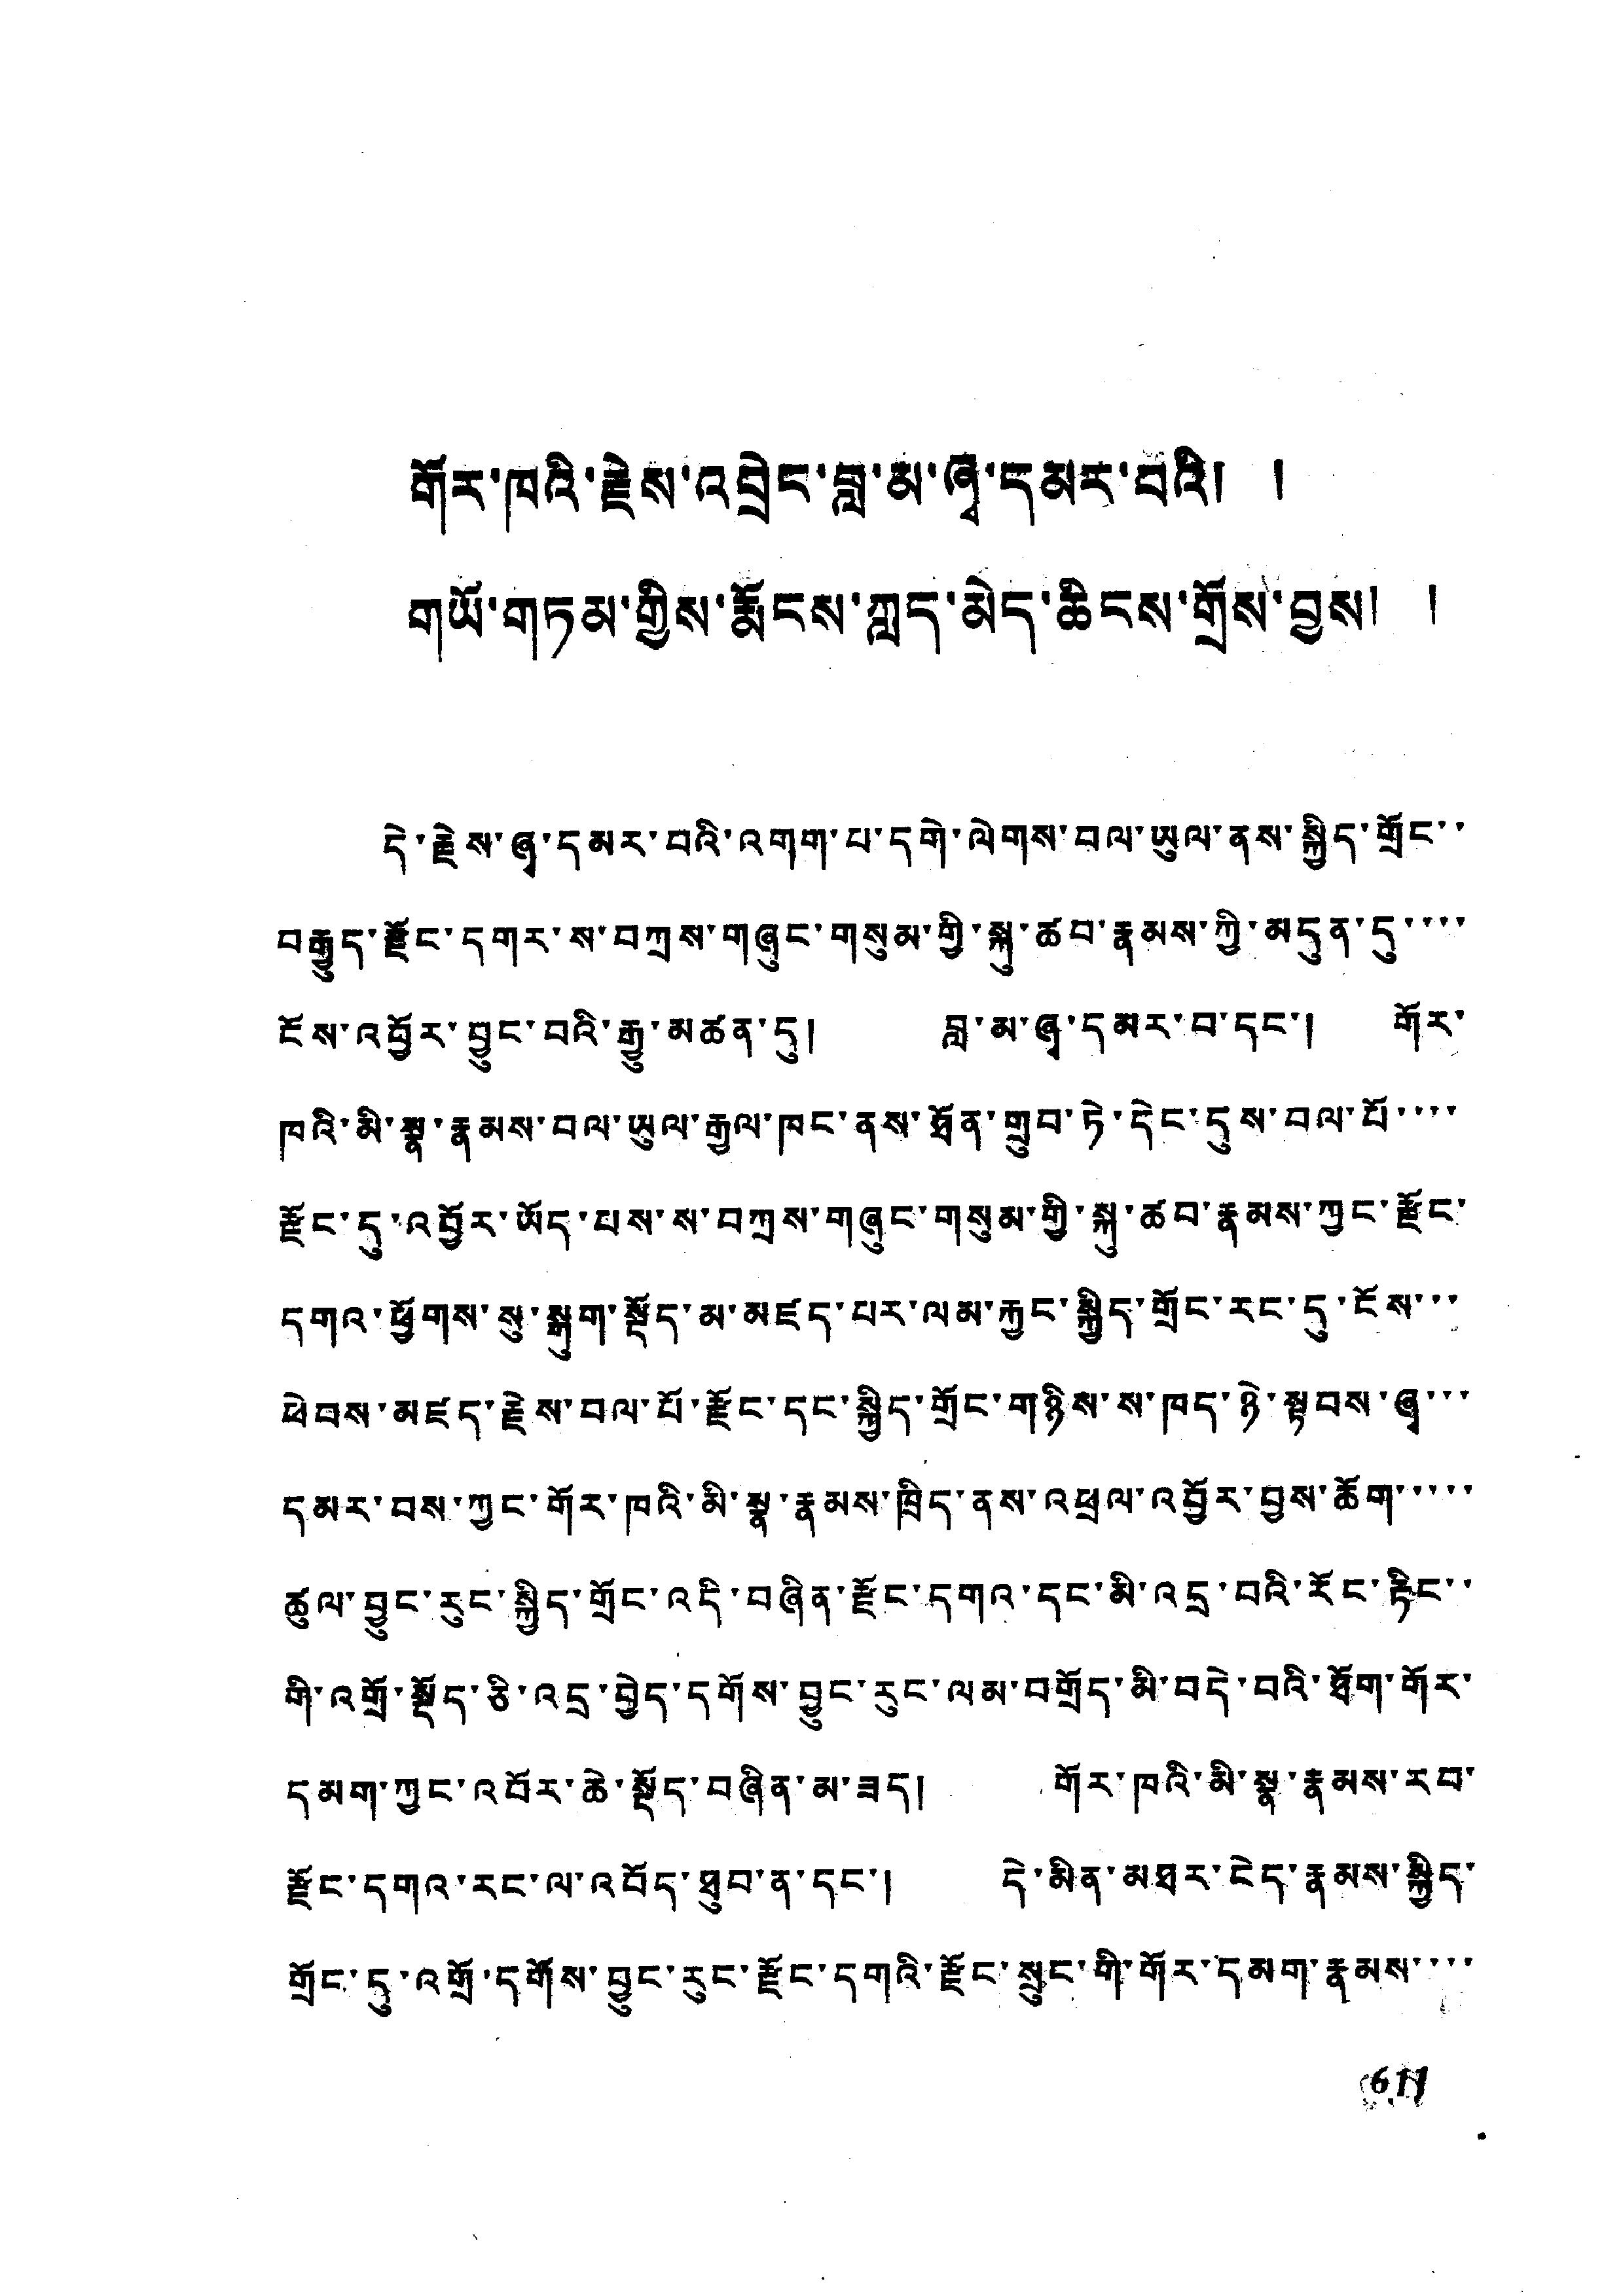གོར་ཁའི་རྗེས་འབྲེང་བླ་མ་ཞྭ་དམར་བའི། །
གཡོ་གཏམ་གྱིས་རྨོངས་ཀླད་མེད་ཆིངས་གྲོས་བྱས། །
དེ་རྗེས་ཞྭ་དམར་བའི་འགག་པ་དགེ་ལེགས་བལ་ཡུལ་ནས་སྐྱིད་གྲོང་་
བརྒྱུད་རྫོང་དགར་ས་བཀྲས་གཞུང་གསུམ་གྱི་སྐུ་ཚབ་རྣམས་ཀྱི་མདུན་དུ་་་་
ངོས་འབྱོར་བྱུང་བའི་རྒྱུ་མཚན་དུ། བླ་མ་ཞྭ་དམར་བ་དང་། གོར་
ཁའི་མི་སྣ་རྣམས་བལ་ཡུལ་རྒྱལ་ཁང་ནས་ཐོན་གྲུབ་ཏེ་དེང་དུས་བལ་པོ་་་་
རྫོང་དུ་འབྱོར་ཡོད་པས་ས་བཀྲས་གཞུང་གསུམ་གྱི་སྐུ་ཚབ་རྣམས་ཀྱང་རྫོང་
དགའ་ཕྱོགས་སུ་སྒུག་སྡོད་མ་མཛད་པར་ལམ་རྐྱང་སྐྱིད་གྲོང་རང་དུ་ངོས་་་
ཕེབས་མཛད་རྗེས་བལ་པོ་རྫོང་དང་སྐྱིད་གྲོང་གཉིས་ས་ཁད་ཉེ་སྟབས་ཞྭ་་་
དམར་བས་ཀྱང་གོར་ཁའི་མི་སྣ་རྣམས་ཁྲིད་ནས་འཕྲལ་འབྱོར་བྱས་ཆོག་་་་་
ཚུལ་བྱུང་རུང་སྐྱིད་གྲོང་འདི་བཞིན་རྫོང་དགའ་དང་མི་འདྲ་བའི་རོང་རྟིང་་
གི་འགྲོ་སྡོད་ཅི་འདྲ་བྱེད་དགོས་བྱུང་རུང་ལམ་བགྲོད་མི་བདེ་བའི་ཐོག་གོར་
དམག་ཀྱང་འབོར་ཆེ་སྡོད་བཞིན་མ་ཟད། གོར་ཁའི་མི་སྣ་རྣམས་རབ་
རྫོང་དགའ་རང་ལ་འབོད་ཐུབ་ན་དང་། དེ་མིན་མཐར་ངེད་རྣམས་སྐྱིད་
གྲོང་དུ་འགྲོ་དགོས་བྱུང་རུང་རྫོང་དགའི་རྫོང་སྲུང་གི་གོར་དམག་རྣམས་་་་
611
